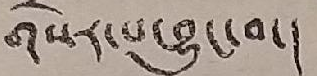གསར་པ་བྱུང་བ་།
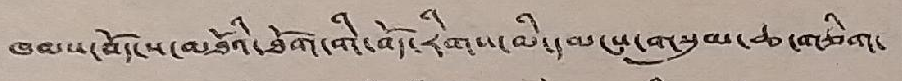ཁམས་བོད་ས་མཐོའི་ཐོག་གི་བོད་རིགས་མི་དམངས་གསུམ་ཆ་གཅིག་
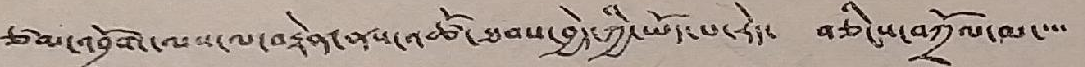ཙམ་འབྲོག་ལས་ལ་བརྟེན་ནས་འཚོ་ཐབས་བྱེད་ཀྱི་ཡོད་པ་རེད་ བཅིངས་བཀྲོལ་མ་་་་
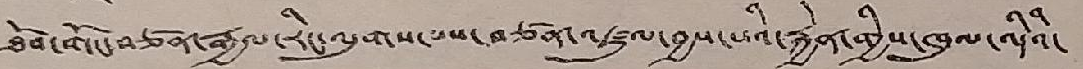ཐོབ་གོང་བཙན་རྒྱལ་རིང་ལུགས་པས་བཙན་འཛུལ་བྱས་པའི་རྐྱེན་གྱིས་ཁུལ་འདིའི་
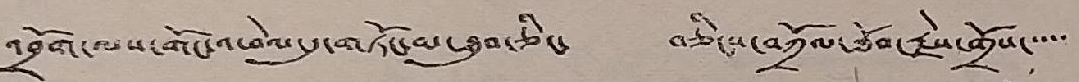འབྲོག་ལས་གོང་འཕེལ་དུ་གཏོང་མ་ཐུབ་ཅིང་ བཅིངས་བཀྲོལ་ཐོབ་རྗེས་གྲོས་་་་་
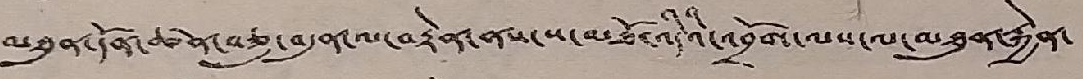མཐུན་དོན་ཚན་བཅུ་བདུན་ལ་བརྟེན་ནས་ས་མཐོ་འདིའི་འབྲོག་ལས་ལ་མཐུན་རྐྱེན་
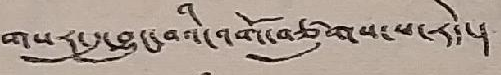གསར་དུ་བྱུང་བའི་འགོ་བཙུགས་པ་རེད་།
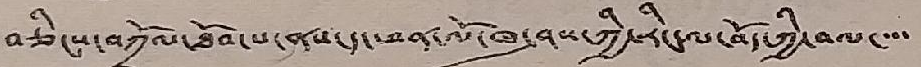བཅིངས་བསྐྲོལ་ཐོབ་པ་ནས་ད་ཕན་ལོ་ཁ་ཤས་ཀྱི་རིང་ལ་བོད་ཀྱི་བལ་་་་
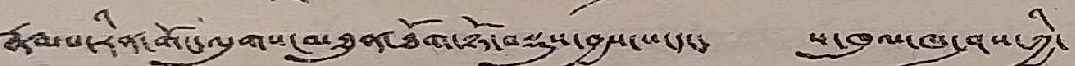རྣམས་རིན་གོང་ལུགས་མཐུན་ཐོག་ཉོ་བསྡུས་བྱས་པ་དང་ ས་ཁུལ་ཁ་ཤས་ཀྱི་
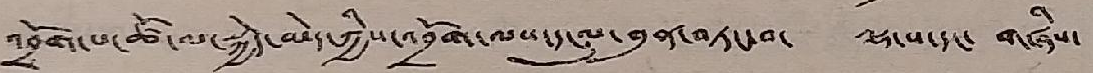འབྲོག་པ་ཚོ་ལ་སྐྱེད་མེད་ཀྱིས་འབྲོག་ལས་དངུལ་བུན་བཏང་བ་ ལྷ་ས་དང་ གཞིས་
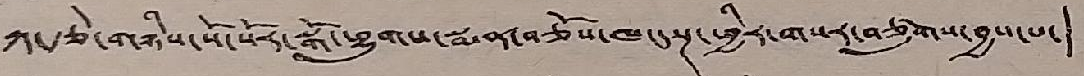ཀ་རྩེ་གཉིས་སོ་སོར་སྒོ་ཤུགས་སྨན་བཅོས་ཁང་སྔ་ཕྱིར་གསར་བཙུགས་བྱས་པ་།
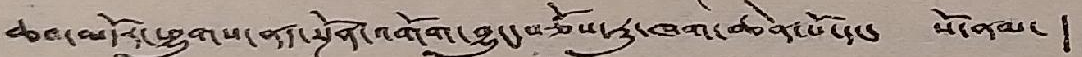ཆབ་མདོར་ཕྱུགས་ནད་སྔོན་འགོག་བྱུང་བཅོས་རུ་ཁག་ཆེན་པོ་དང་ སོ་ནམ་ །
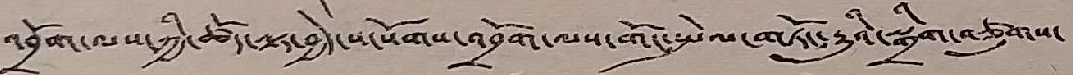འབྲོག་ལས་ཀྱི་ཚོད་ལྟ་བྱེད་ས་སོགས་འབྲོག་ལས་གོང་སྤེལ་གཏོང་རྒྱུའི་སྒྲིག་བཙུགས་
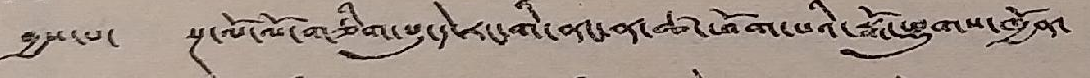བྱས་པ་ སྔ་ལོ་ལོ་གཅིག་པུ་དེ་རང་གི་ནང་ན་ཚ་ཕོག་པའི་སྒོ་ཕྱུགས་ཁྱོན་
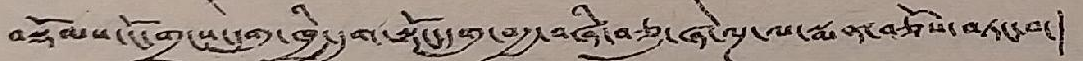བསྡོམས་ངོ་གྲངས་དགུ་ཁྲི་དྲུག་སྟོང་དགུ་བརྒྱ་བཞི་བཅུ་ཞེ་ལྔ་ལ་སྨན་བཅོས་བཏང་བ་།
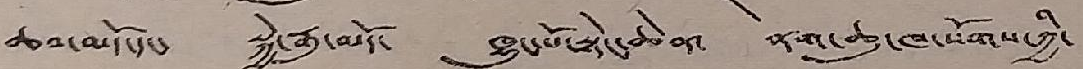ཆབ་མདོ་དང་ སྐྱེ་རྒུ་མདོ་ ཁྱུང་པོ་སྟེང་ཆེན་ ནག་ཆུ་ཁ་སོགས་ཀྱི་
